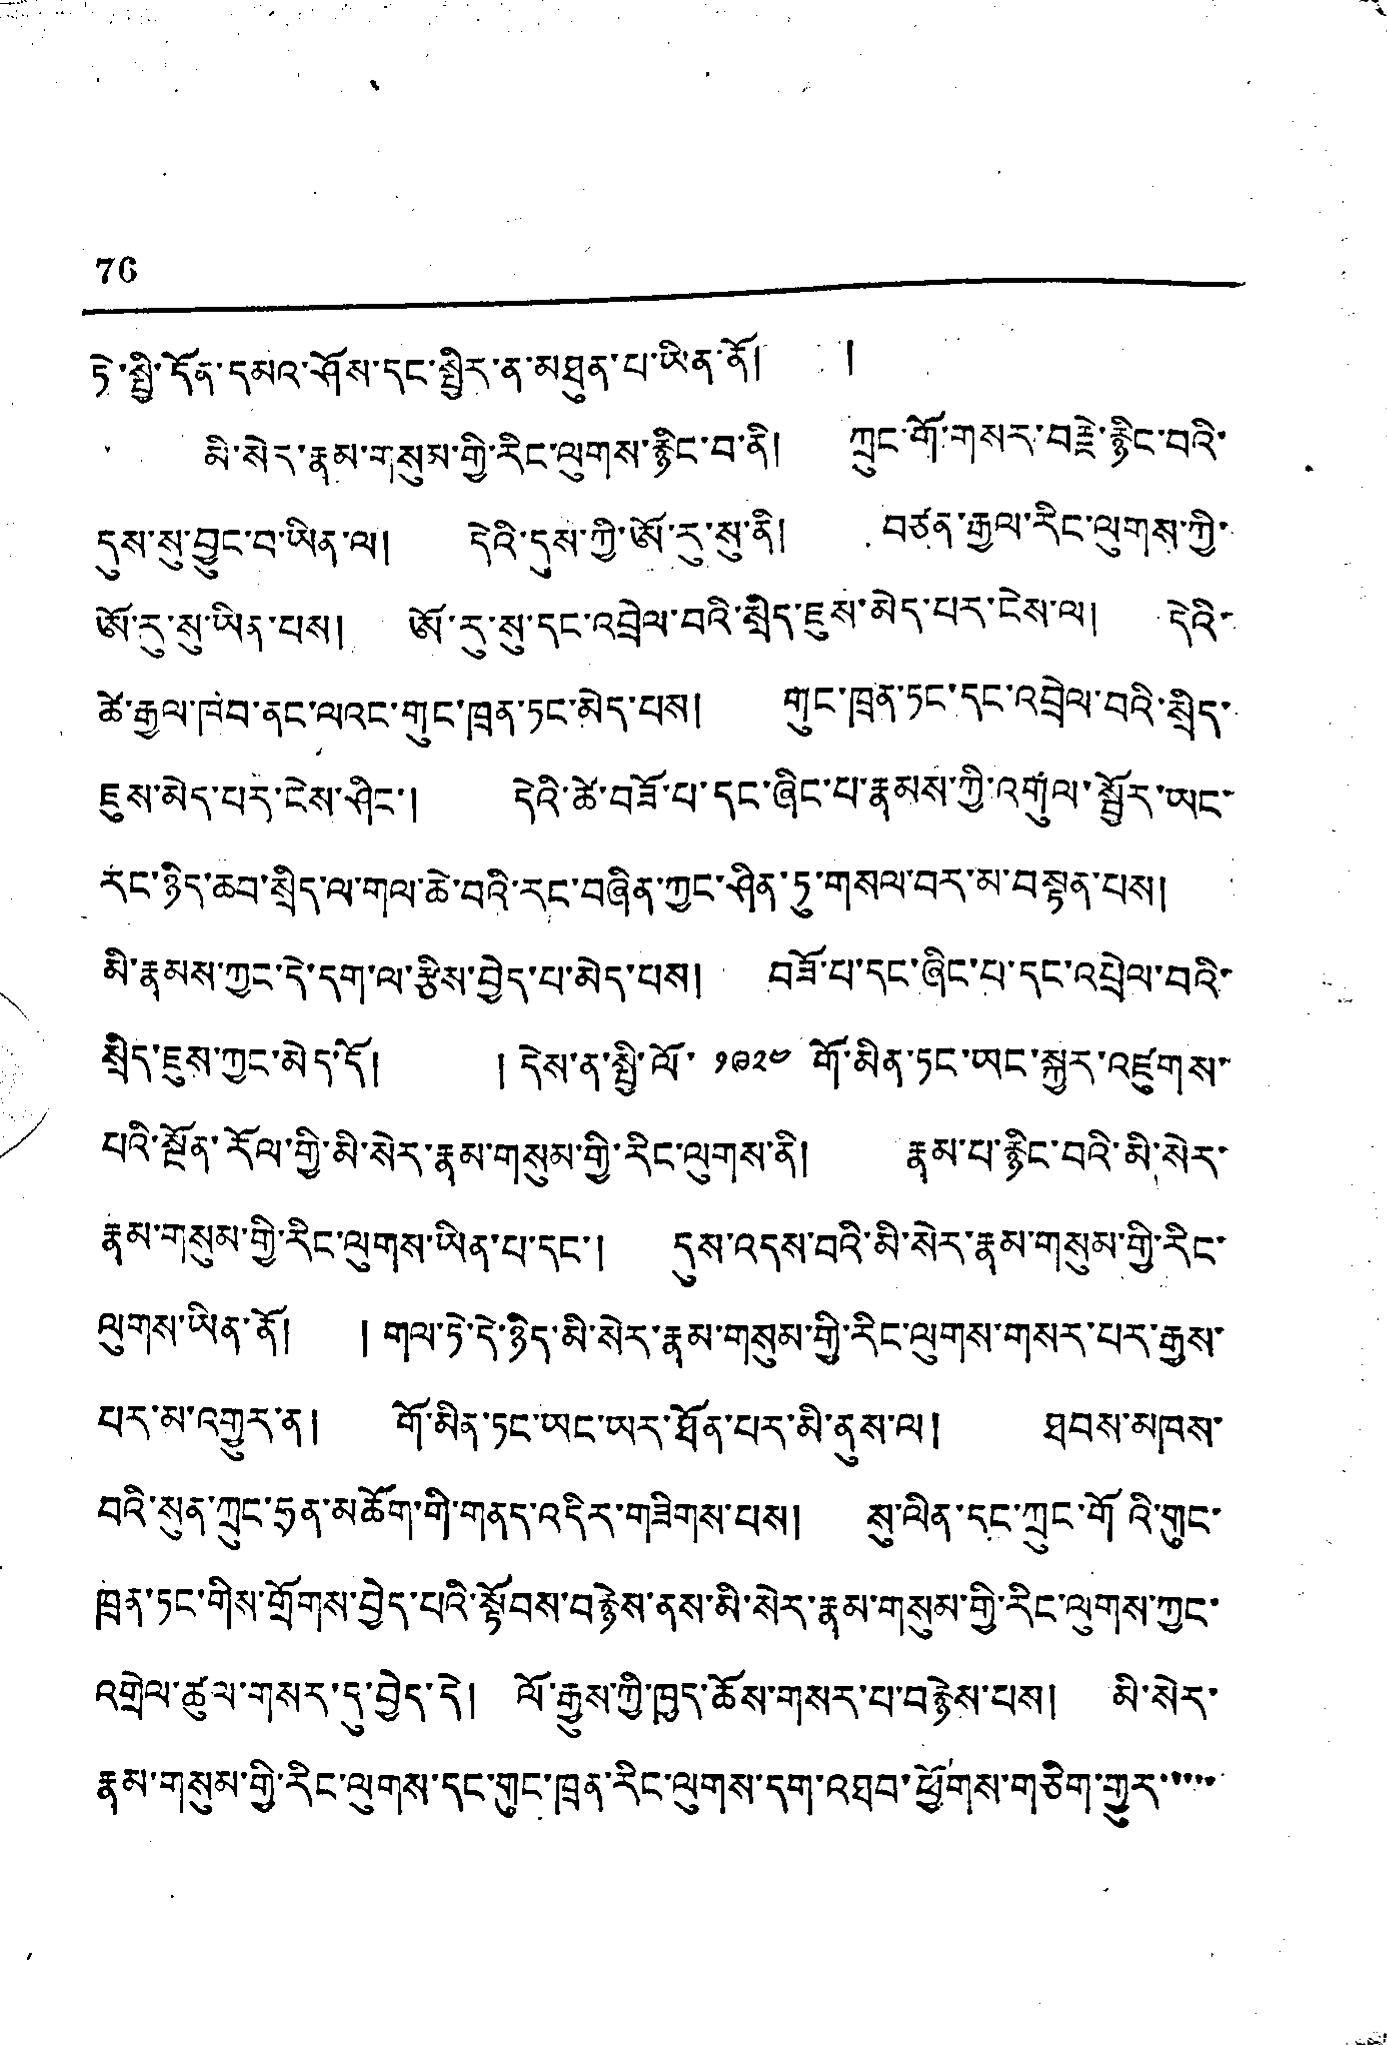76
ཏེ་སྤྱི་དོན་དམའ་ཤོས་དང་སྤྱིར་ན་མཐུན་པ་ཡིན་ནོ། །
མི་སེད་རྣམ་གསུམ་གྱི་རིང་ལུགས་རྙིང་བ་ནི། ཀྲུང་གོ་གསར་བརྗེ་རྙིང་བའི་
དུས་སུ་བྱུང་བ་ཡིན་ལ། དེའི་དུས་ཀྱི་ཨོ་རུ་སུ་ནི། བཙན་རྒྱལ་རིང་ལུགས་ཀྱི་
ཨོ་རུ་སུ་ཡིན་པས། ཨོ་རུ་སུ་དང་འབྲེལ་བའི་སྲིད་ཇུས་མེད་པར་ངེས་ལ། དེའི་
ཚེ་རྒྱལ་ཁབ་ནང་ལའང་གུང་ཁྲན་ཏང་མེད་པས། གུང་ཁྲན་ཏང་དང་འབྲེལ་བའི་སྲིད་
ཇུས་མེད་པར་ངེས་ཤིང་། དེའི་ཚེ་བཟོ་པ་དང་ཞིང་པ་རྣམས་ཀྱི་འགུལ་སྦྱོར་ཡང་
རང་ཉིད་ཆབ་སྲིད་ལ་གལ་ཆེ་བའི་རང་བཞིན་ཀྱང་ཤིན་ཏུ་གསལ་བར་མ་བསྟན་པས།
མི་རྣམས་ཀྱང་དེ་དག་ལ་རྩིས་བྱེད་པ་མེད་པས། བཟོ་པ་དང་ཞིང་པ་དང་འཕྲེལ་བའི་
སྲིད་ཇུས་ཀྱང་མེད་དོ། །དེས་ན་སྤྱི་ལོ་ ༡༩༢༤ གོ་མིན་ཏང་ཡང་སྐྱུར་འཛུགས་
པའི་སྔོན་རོལ་གྱི་མི་སེར་རྣམ་གསུམ་གྱི་རིང་ལུགས་ནི། རྣམ་པ་རྙིང་བའི་མི་སེར་
རྣམ་གསུམ་གྱི་རིང་ལུགས་ཡིན་པ་དང་། དུས་འདས་བའི་མི་སེར་རྣམ་གསུམ་གྱི་རིང་
ལུགས་ཡིན་ནོ། །གལ་ཏེ་དེ་ཉིད་མི་སེར་རྣམ་གསུམ་གྱི་རིང་ལུགས་གསར་པར་རྒྱས་
པར་མ་འགྱུར་ན། གོ་མིན་ཏང་ཡང་ཡར་ཐོན་པར་མི་ནུས་ལ། ཐབས་མཁས་
བའི་སུན་ཀྲུང་ཧྲན་མཆོག་གི་གནད་འདིར་གཟིགས་པས། སུ་ལིན་དང་ཀྲུང་གོའི་གུང་
ཁྲུན་ཏང་གིས་གྲོགས་བྱེད་པལི་སྟོབས་བརྙེས་ནས་མི་སེར་རྣམ་གསུམ་གྱི་རིང་ལུགས་ཀྱང་
འགྲེལ་ཚུལ་གསར་དུ་བྱེད་དེ། ལོ་རྒྱུས་ཀྱི་ཁྱད་ཆོས་གསར་པ་བརྙེས་པས། མི་སེར་
རྣམ་གསུམ་གྱི་རིང་ལུགས་དང་གུང་ཁྲན་རིང་ལུགས་དག་འཐབ་ཕྱོགས་གཅིག་གྱུར་་་་་
